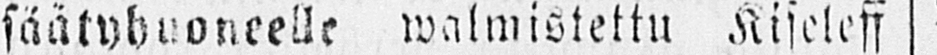säätyhuoneelle walmistettu Kiseleff
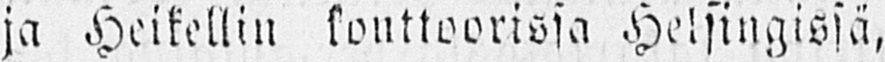ja Heikellin konttoorissa Helsingissä,
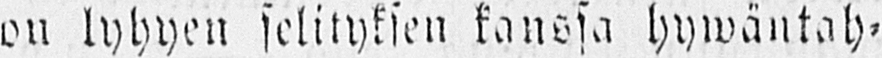on lyhyen selityksen kanssa hywäntah-
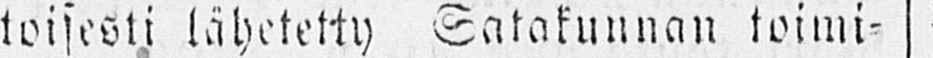toisesti lähetetty Satakunnan toimi-
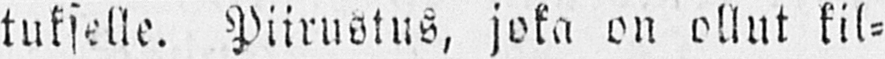tukselle. Piirustus, joka on ollut kil-
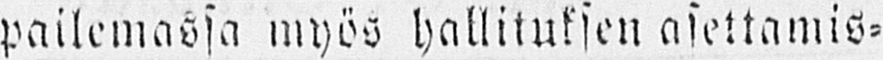pailemassa myös hallituksen asettamis-
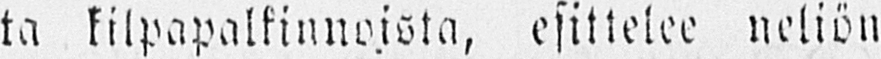ta kilpapalkinnoista, esittelee neliön
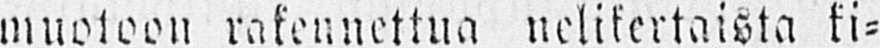muotoon rakennettua nelikertaista ki-
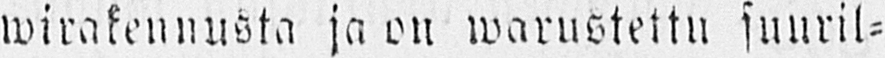wirakennusta ja on warustettu suuril-
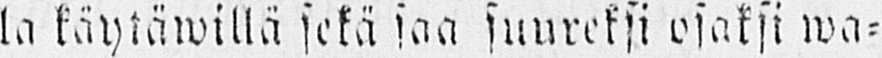la käytäwillä sekä saa suuriksi osaksi wa-
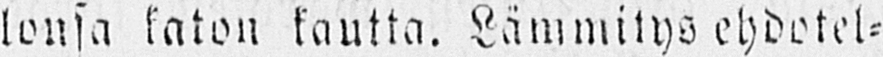lonsa katon kautta. Lämmitys ehdotel-
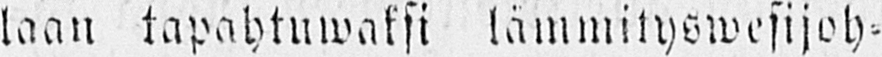laan tapahtuwaksi lämmityswesijoh-
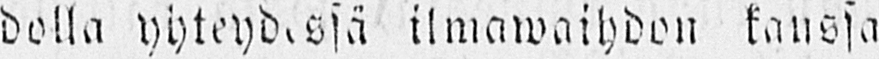dolla yhteydessä ilmawaihdon kanssa
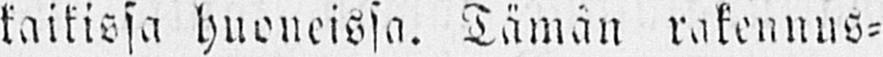kaikissa huoneissa. Tämän rakennus-
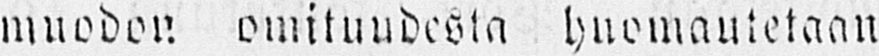muodon omituudesta huomautetaan
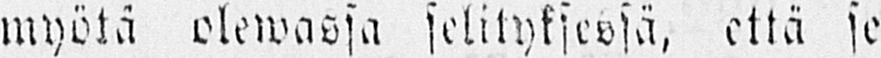myötä olewassa selityksessä että se
